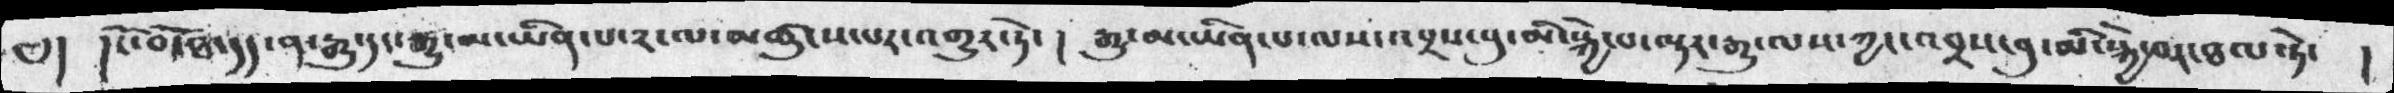དུ། །ངོ་བོ་ཐ་དད་ན་རྒྱུ་དང་རྒྱུ་མ་ཡིན་པ་༢་ལ་མཚུངས་པར་འགྱུར་ཏེ་། རྒྱུ་མ་ཡིན་པ་ལས་འབྲས་བུ་མི་སྐྱེ་བ་ལྟར་རྒྱུ་ལས་ཀྱང་འབྲས་བུ་མི་སྐྱེ་བར་ཐལ་ཏེ་   །
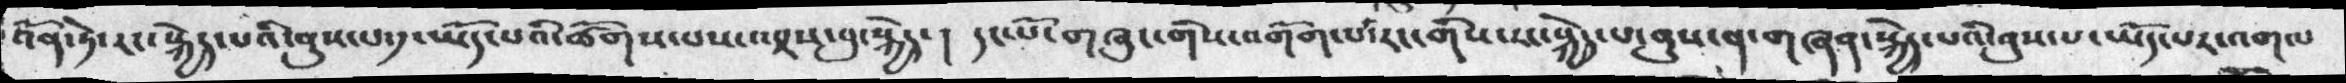འོན་ཏེ་རང་སྐྱེད་པའི་ནུས་པ་༡་ཡོད་པའི་ཚོགས་པས་འབྲས་བུ་སྐྱེད་།  དང་པོ་གཞུང་གིས་འགོག་པ་རང་གིས་རང་སྐྱེད་པ་ནུས་ན་གཞན་སྐྱེད་པའི་པ་ཡོད་པར་འགལ
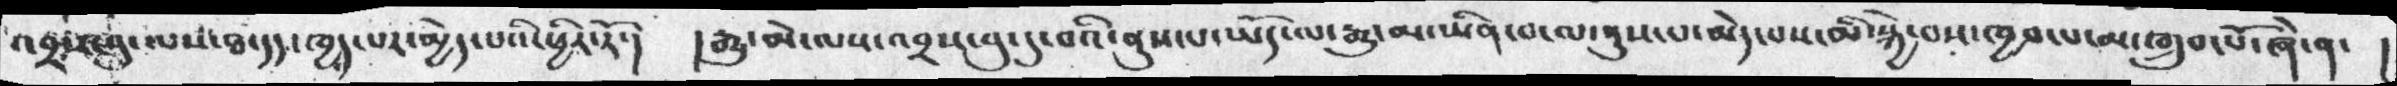འབྲས་བུ་ལས་ཐ་དད་ཁྱད་པར་མྱེད་པའི་ཕྱིར་རོ་།  །རྒྱུ་མེ་ལས་འབྲས་བུ་དུ་བའི་ནུས་པ་ཡོད་ལ་རྒྱུ་མ་ཡིན་པ་ལ་ནུས་པ་མེད་པས་མི་སྐྱེ་བས་ཁྱབ་པ་མ་གྲུབ་པོ་ཞེ་ན་ །
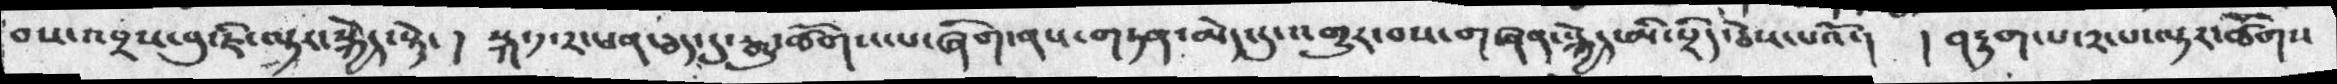བས་འབྲས་བུ་ཇི་ལྟར་སྐྱེད་སྟེ་།  སྐ་༡་༢་ཕན་ཅད་དུ་རྒྱུ་ཚོགས་པ་ཞིག་གཏན་མེད་དུ་འགྱུར་བས་གཞན་སྐྱེད་མི་སྲིད་ཅེས་པའོ་།  །བརྟག་པ་༢་པ་ལྟར་ཚོགས
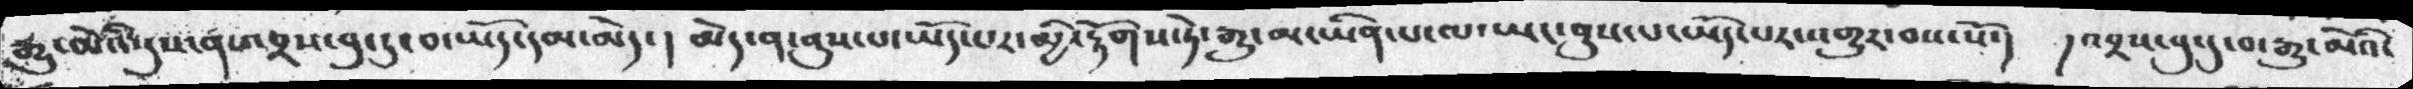རྒྱུ་མེའི་དུས་ནས་འབྲས་བུ་དུ་བ་ཡོད་དམ་མེད་།  མེད་ན་ནུས་པ་ཡོད་པར་མྱི་རྟོགས་ཏེ་རྒྱུ་མ་ཡིན་པ་ལ་ཡང་ནུས་པ་ཡོད་པར་འགྱུར་བས་སོ་། །འབྲས་བུ་དུ་བ་རྒྱུ་མེའི་
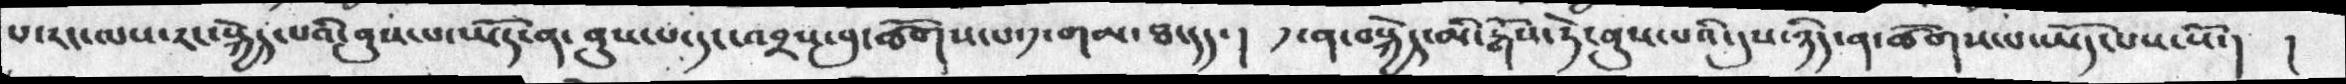པ་རང་ལས་རང་སྐྱེད་པའི་ནུས་པ་ཡོད་ན་ནུས་པ་དང་འབྲས་བུ་ཚོགས་པ་༡་གམ་ཐ་དད་།  ༡་ན་བསྐྱེད་མི་རྒོས་ཏེ་ནུས་པའི་དུས་ཉིད་ན་ཚོགས་པ་ཡོད་པས་སོ་། །
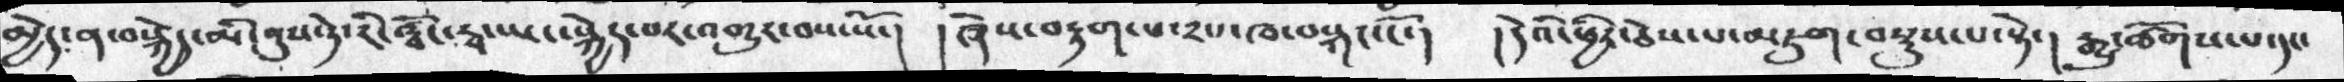མྱེད་ན་བསྐྱེད་མི་ནུས་ཏེ་རི་ཝོང་རྭ་ཡང་སྐྱེད་བར་འགྱུར་བས་སོ་།  །ཞེས་བརྟག་པ་༢པ་ཁ་བསྐང་ངོ་།  །དེའི་ཕྱིར་ཅེས་པ་མཇུག་བསྡུས་པ་སྟེ་། རྒྱུ་ཚོགས་པ་དང་
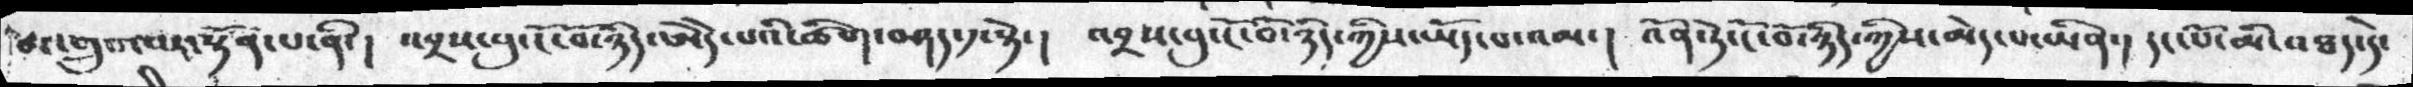མ་གྲུབ་པར་སྟོན་པ་ནི་། འབྲས་བུ་ངོ་བོ་ཉིད་ཨེདེ་པའི་ཚིག་བཤད་༡་སྟེ་།  འབྲས་བུ་ངོ་བོ་ཉིད་ཀྱིས་ཡོད་པ་འམ་།  འོན་ཏེ་ངོ་བོ་ཉིད་ཀྱིས་མེད་པ་ཡིན་། དང་པོ་མི་འཐད་དེ་
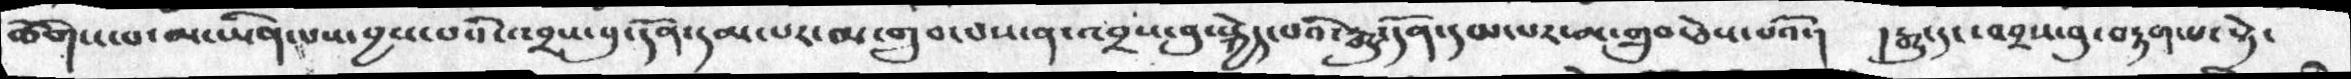ཚོགས་པ་མ་ཡིན་པས་བྱས་པའི་འབྲས་བུ་དོན་དམ་པར་མ་གྲུབ་པས་ན་འབྲས་བུ་སྐྱེད་པའི་རྒྱུ་དོན་དམ་པར་མ་གྲུབ་ཅེས་པའོ་། །རྒྱུ་དང་འབྲས་བུ་བརྟག་པ་སྟེ་
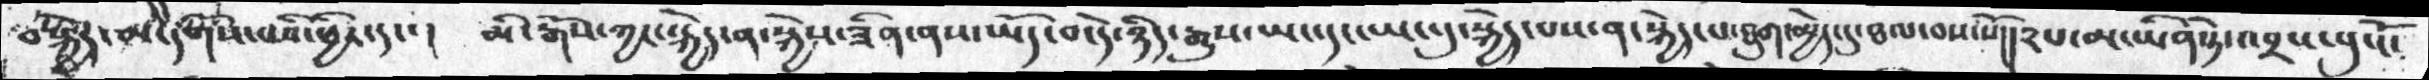བསྐྱེད་མི་དགོས་པའི་ཕྱིར་དང་།  མི་རྒོས་ཀྱང་སྐྱེད་ན་སྐྱེས་ཟིན་ནས་ཡོད་བ་དེ་ཉིད་རྒྱུས་ཡང་དང་ཡང་དུ་སྐྱེད་པས་ན་སྐྱེད་པ་ཐུག་མྱེད་དུ་ཐལ་བས་སོ་།།༢པ་མ་ཡིན་ཏེ་འབྲས་བུ་ངོ་
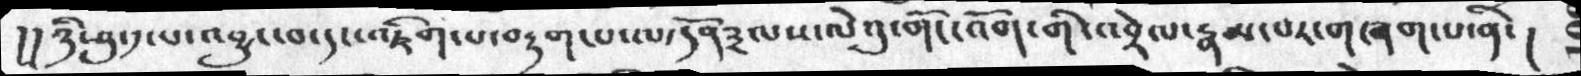།། ཉི་ཤུ་༡་པ་འབྱུང་བ་ད་འཇིག་པ་བརྟག་པ་ལ་དོན༣ལས་ལེའུ་གོང་འོག་གི་འབྲེལ་རྣམ་པར་གཞག་པ་ནི་།
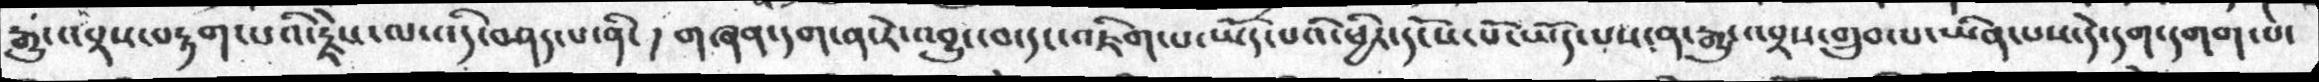རྒྱུ་འབྲས་བརྟག་པའི་རྗེས་ལ་འདི་བཤད་པ་ནི་། གཞན་དག་ན་རེ་འབྱུང་བ་དང་འཇིག་པ་ཡོད་པའི་ཕྱིར་དངོས་པོ་ཡོད་པས་ན་རྒྱུ་འབྲས་གྲུབ་པ་ཡིན་པས་དེ་དག་དགག་པ་
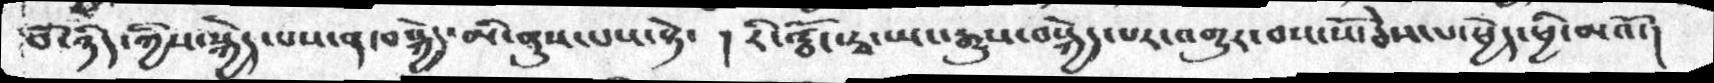བོ་ཉིད་ཀྱིས་སྐྱེད་པས་ན་བསྐྱེད་མི་ནུས་པས་སྟེ་ ། རི་ཝོང་རྭ་ཡང་རྒྱུས་བསྐྱེད་པར་འགྱུར་བས་སོ་ཅེས་པ་ཕྱེད་ཕྱི་མའོ་།
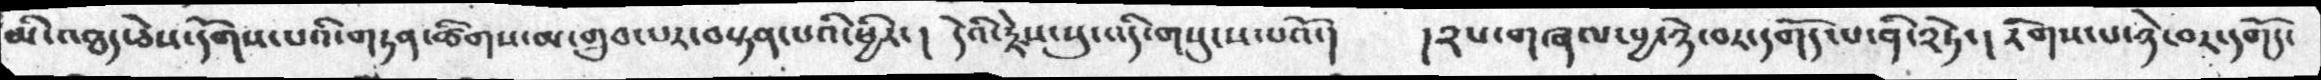མི་འཐད་ཅེས་དོགས་པའི་གཏན་ཚིགས་མ་གྲུབ་པར་བསྟན་པའི་ཕྱིར་།  དེའི་རྗེས་སུ་འདི་གསུངས་པའོ་།  །༢པ་གཞལ་བྱ་ཉེ་བར་དགོད་པ་ནི་༢ཏེ་། རིགས་པ་ཉེ་བར་དགོད་
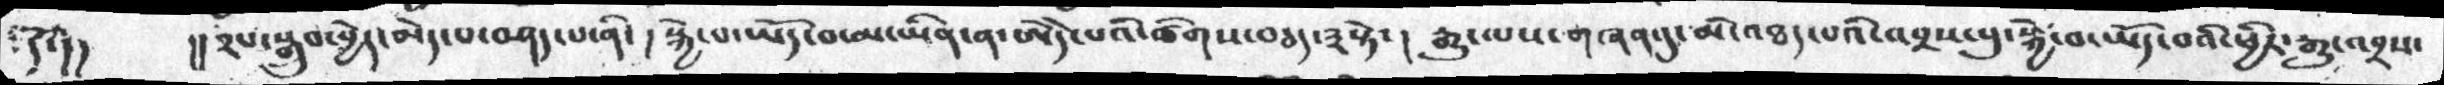དོ་།།  །།༢པ་སྒྲུབ་བྱེད་མེད་པ་བཤད་པ་ནི་།  སྐྱེ་བ་ཡོད་བ་མ་ཡིན་ན་ཨེདེ་པའི་ཚིགས་བཅད་༣སྟེ་། རྒྱུ་ལས་གཞན་དུ་མི་འཐད་པའི་འབྲས་བུ་སྐྱེ་བ་ཡོད་བའི་ཕྱིར་རྒྱུ་འབྲས་
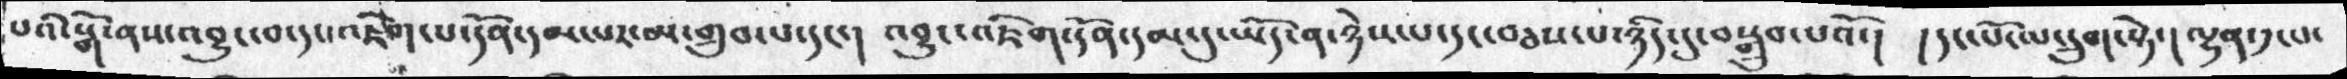པའི་སྒོ་ནས་འབྱུང་བ་དང་འཇིག་པ་དོན་དམ་པར་མ་གྲུབ་པ་དང་།  འབྱུང་འཇིག་དོན་དམ་དུ་ཡོད་ན་ཉེས་པ་དང་བཅས་པ་ཉིད་དུ་བསྒྲུབ་པའོ་། དང་པོ་ལ་དྲུག་སྟེ་། ལྷན་༡་པ་
